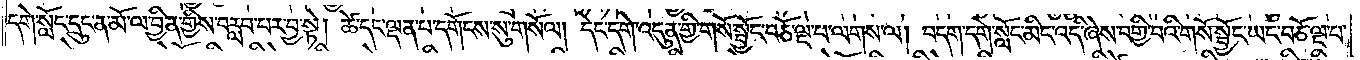དགེ་སློང་དྲུང་ན་མོ་ལ་བྱིན་གྱིས་བརླབ་པར་བྱ་སྟེ། ཚེ་དང་ལྡན་པ་དགོངས་སུ་གསོལ། དེང་དགེ་འདུན་གྱི་གསོ་སྦྱོང་བཅོ་ལྔ་པ་ལགས་ལ། བདག་དགེ་སློང་མིང་འདི་ཞེས་བགྱི་བའི་གསོ་སྦྱོང་ཡང་བཅོ་ལྔ་པ་
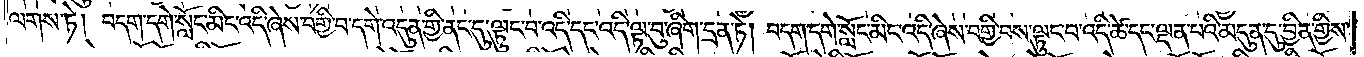ལགས་ཏེ། བདག་དགེ་སློང་མིང་འདི་ཞེས་བགྱི་བ་དགེ་འདུན་གྱི་ནང་དུ་ལྟུང་བ་འདི་དང་འདི་ལྟ་བུ་ཞིག་དྲན་ཏེ། བདག་དགེ་སློང་མིང་འདི་ཞེས་བགྱི་བས་ལྟུང་བ་འདི་ཚེ་དང་ལྡན་པའི་མདུན་དུ་བྱིན་གྱིས་
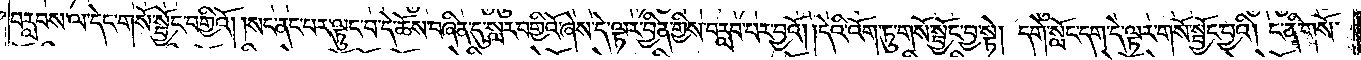བརླབས་ལ་དེང་གསོ་སྦྱོང་བགྱིའོ། །སང་ནང་པར་ལྟུང་བ་དེ་ཆོས་བཞིན་དུ་སླར་བགྱིའོ་ཞེས་དེ་ལྟར་བྱིན་གྱིས་བརླབ་པར་བྱའོ། །དེའི་འོག་ཏུ་གསོ་སྦྱོང་བྱ་སྟེ། དགེ་སློང་དག་དེ་ལྟར་གསོ་སྦྱོང་བྱའི། ང་ནི་གསོ་
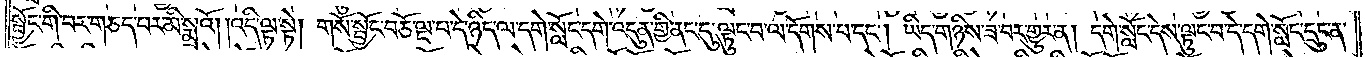སྦྱོང་གི་བར་གཅད་པར་མི་སྨྲའོ། །འདི་ལྟ་སྟེ། གསོ་སྦྱོང་བཅོ་ལྔ་པ་དེ་ཉིད་ལ་དགེ་སློང་དགེ་འདུན་གྱི་ནང་དུ་ལྟུང་བ་ལ་དོགས་པ་དང༌། ཡིད་གཉིས་ཟ་བར་གྱུར་ན། དགེ་སློང་དེས་ལྟུང་བ་དེ་དགེ་སློང་དྲུང་ན་
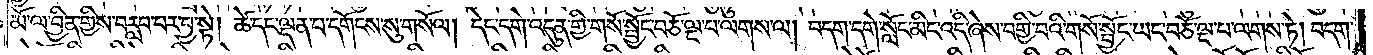མོ་ལ་བྱིན་གྱིས་བརླབ་པར་བྱ་སྟེ། ཚེ་དང་ལྡན་པ་དགོངས་སུ་གསོལ། །དེང་དགེ་འདུན་གྱི་གསོ་སྦྱོང་བཅོ་ལྔ་པ་ལགས་ལ། བདག་དགེ་སློང་མིང་འདི་ཞེས་བགྱི་བའི་གསོ་སྦྱོང་ཡང་བཅོ་ལྔ་པ་ལགས་ཏེ། བདག་
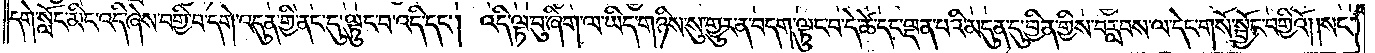དགེ་སློང་མིང་འདི་ཞེས་བགྱི་བ་དགེ་འདུན་གྱི་ནང་དུ་ལྟུང་བ་འདི་དང༌། འདི་ལྟ་བུ་ཞིག་ལ་ཡིད་གཉིས་སུ་གྱུར་ན་བདག་ལྟུང་བ་དེ་ཚེ་དང་ལྡན་པའི་མདུན་དུ་བྱིན་གྱིས་བརླབས་ལ་དེང་གསོ་སྦྱོང་བགྱིའོ། །སང་
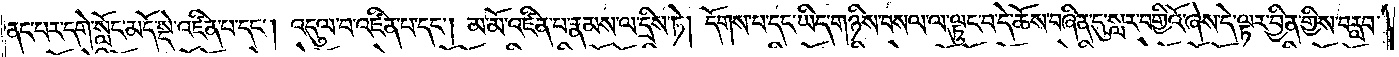ནང་པར་དགེ་སློང་མདོ་སྡེ་འཛིན་པ་དང༌། འདུལ་བ་འཛིན་པ་དང༌། མ་མོ་འཛིན་པ་རྣམས་ལ་དྲིས་ཏེ། དོགས་བ་དང་ཡིད་གཉིས་བསལ་ལ་ལྟུང་བ་དེ་ཆོས་བཞིན་དུ་སླར་བགྱིའོ་ཞེས་དེ་ལྟར་བྱིན་གྱིས་བརླབ་
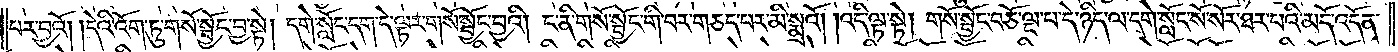པར་བྱའོ། །དེའི་འོག་ཏུ་གསོ་སྦྱོང་བྱ་སྟེ། དགེ་སློང་དག་དེ་ལྟར་གསོ་སྦྱོང་བྱའི། ང་ནི་གསོ་སྦྱོང་གི་བར་གཅད་པར་མི་སྨྲའོ། །འདི་ལྟ་སྟེ། གསོ་སྦྱོང་བཅོ་ལྔ་པ་དེ་ཉིད་ལ་དགེ་སློང་སོ་སོར་ཐར་པའི་མདོ་འདོན་
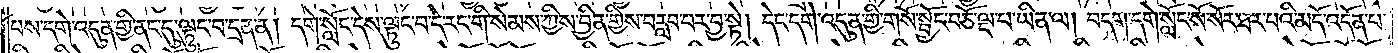པས་དགེ་འདུན་གྱི་ནང་དུ་ལྟུང་བ་དྲན་ན། དགེ་སློང་དེས་ལྟུང་བ་དེ་རང་གི་སེམས་ཀྱིས་བྱིན་གྱིས་བརླབ་པར་བྱ་སྟེ། དེང་དགེ་འདུན་གྱི་གསོ་སྦྱོང་བཅོ་ལྔ་པ་ཡིན་ལ། བདག་དགེ་སློང་སོ་སོར་ཐར་པའི་མདོ་འདོན་པ་
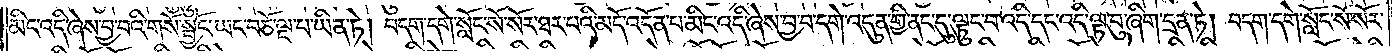མིང་འདི་ཞེས་བྱ་བའི་གསོ་སྦྱོང་ཡང་བཅོ་ལྔ་པ་ཡིན་ཏེ། བདག་དགེ་སློང་སོ་སོར་ཐར་པའི་མདོ་འདོན་པ་མིང་འདི་ཞེས་བྱ་བ་དགེ་འདུན་གྱི་ནང་དུ་ལྟུང་བ་འདི་དང་འདི་ལྟ་བུ་ཞིག་དྲན་ཏེ། བདག་དགེ་སློང་སོ་སོར་
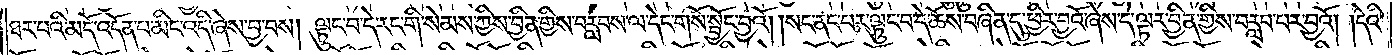ཐར་པའི་མདོ་འདོན་པ་མིང་འདི་ཞེས་བྱ་བས། ལྟུང་བ་དེ་རང་གི་སེམས་ཀྱིས་བྱིན་གྱིས་བརླབས་ལ་དེང་གསོ་སྦྱོང་བྱའོ། །སང་ནང་པར་ལྟུང་བ་དེ་ཆོས་བཞིན་དུ་ཕྱིར་བྱའོ་ཞེས་དེ་ལྟར་བྱིན་གྱིས་བརླབ་པར་བྱའོ། །དེའི་
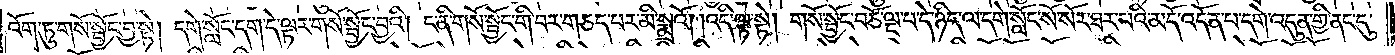འོག་ཏུ་གསོ་སྦྱོང་བྱ་སྟེ། དགེ་སློང་དག་དེ་ལྟར་གསོ་སྦྱོང་བྱའི། ང་ནི་གསོ་སྦྱོང་གི་བར་གཅད་པར་མི་སྨྲའོ། །འདི་ལྟ་སྟེ། གསོ་སྦྱོང་བཅོ་ལྔ་པ་དེ་ཉིད་ལ་དགེ་སློང་སོ་སོར་ཐར་པའི་མདོ་འདོན་པ་དགེ་འདུན་གྱི་ནང་དུ་
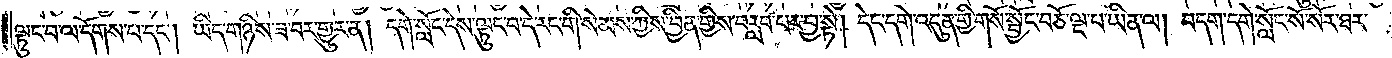ལྟུང་བ་ལ་དོགས་པ་དང༌། ཡིད་གཉིས་ཟ་བར་གྱུར་ན། དགེ་སློང་དེས་ལྟུང་བ་དེ་རང་གི་སེམས་ཀྱིས་བྱིན་གྱིས་བརླབ་པར་བྱ་སྟེ། དེང་དགེ་འདུན་གྱི་གསོ་སྦྱོང་བཅོ་ལྔ་པ་ཡིན་ལ། བདག་དགེ་སློང་སོ་སོར་ཐར་
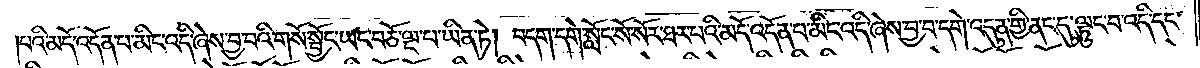པའི་མདོ་འདོན་པ་མིང་འདི་ཞེས་བྱ་བའི་གསོ་སྦྱོང་ཡང་བཅོ་ལྔ་པ་ཡིན་ཏེ། བདག་དགེ་སློང་སོ་སོར་ཐར་པའི་མདོ་འདོན་པ་མིང་འདི་ཞེས་བྱ་བ་དགེ་འདུན་གྱི་ནང་དུ་ལྟུང་བ་འདི་དང་
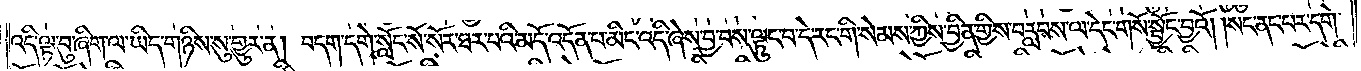འདི་ལྟ་བུ་ཞིག་ལ་ཡིད་གཉིས་སུ་གྱུར་ན། བདག་དགེ་སློང་སོ་སོར་ཐར་པའི་མདོ་འདོན་པ་མིང་འདི་ཞེས་བྱ་བས་ལྟུང་བ་དེ་རང་གི་སེམས་ཀྱིས་བྱིན་གྱིས་བརླབས་ལ་དེང་གསོ་སྦྱོང་བྱའོ། །སང་ནང་བར་དགེ་
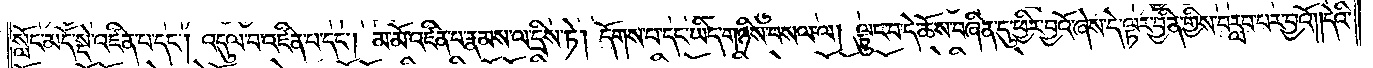སློང་མདོ་སྡེ་འཛིན་པ་དང༌། འདུལ་བ་འཛིན་པ་དང༌། མ་མོ་འཛིན་པ་རྣམས་ལ་དྲིས་ཏེ། དོགས་པ་དང་ཡིད་གཉིས་བསལ་ལ། ལྟུང་བ་དེ་ཆོས་བཞིན་དུ་ཕྱིར་བྱའོ་ཞེས་དེ་ལྟར་བྱིན་གྱིས་བརླབ་པར་བྱའོ། །དེའི་
